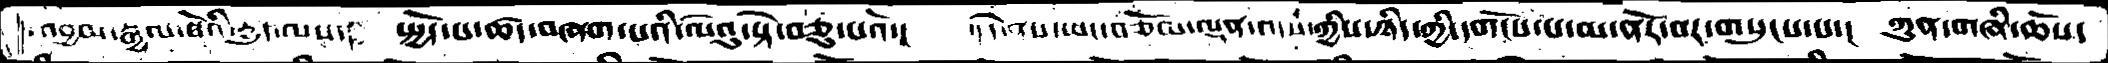འབྱམ་་རྒྱལ་པོའི་དྱུད་ལས་།  སྤྱོད་པ་ཚད་བཞག་པའི་ལེའུ་སྟེ་བཅུ་པའོ་།   ་།དེ་ནས་ཡང་བཅོམ་ལྡན་འདས་ཀྱིས་ཉིད་ཀྱི་དགོངས་པ་མ་ནོར་བར་གསུངས་པ་།  ཀུན་གཞི་ཆོས་
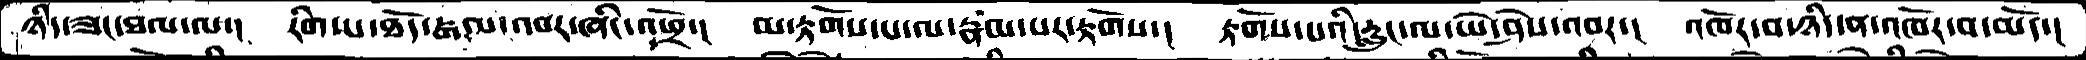ཉིད་ཟང་ཐལ་ལ་།  རིག་པ་ཐོད་རྒལ་འབར་ཞིང་འཕྲོ་།  མ་རྟོགས་པ་ལ་རྣམ་པར་རྟོགས་།  རྟོགས་པའི་རླུང་ལ་ཡེ་ཤེས་འབར་།  འཁོར་བ་ཉིད་ན་འཁོར་བ་མོད་།
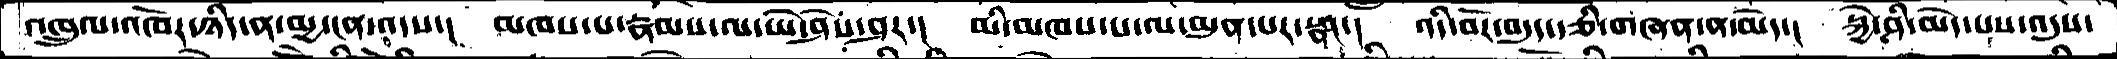འཁྲུལ་འཁོར་ཉིད་ན་མྱ་ངན་འདས་།  མཁས་པ་རྣམས་ལ་ཡེ་ཤེས་ཤར་།  མི་འཁས་པ་ལ་མུན་པར་སྣང་།  འདི་བོར་བདུད་རྩི་གཞན་ན་མེད་།  སྐྱེ་ཤི་མེད་པས་འདུས་
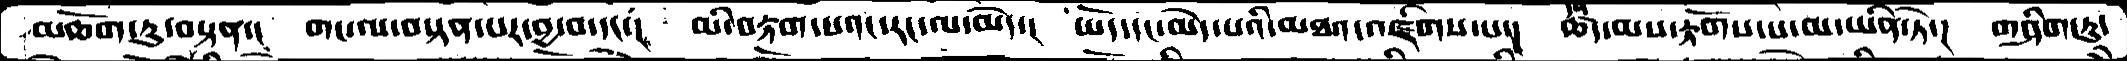མཆོག་ཏུ་བསྟན་།  གང་ལ་བསྟན་པར་བྱ་བ་དང་།  མི་བརྟག་པའང་རང་ལ་མེད་།  ཡོད་དང་མེད་པའི་མཐའ་འཇིགས་པ་།  ཚད་མས་རྟོགས་པ་མ་ཡིན་ཏེ་།  གཤིག་ཏུ་
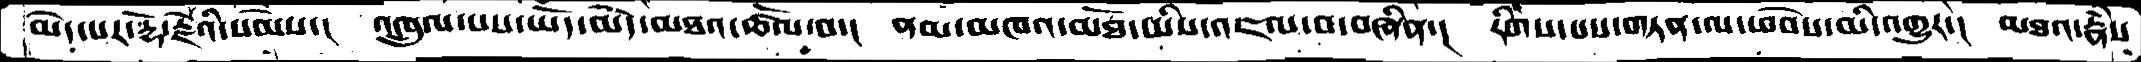མེད་པར་རྡོ་རྗེའི་སེམས་།  འཁྲུལ་པས་ཡོད་མེད་མཐའ་ཚོལ་བ་།  ནམ་མཁའ་མཐོ་ཡིས་འཇལ་བ་བཞིན་།  རིགས་པས་གཏན་ལ་ཕེབས་མི་འགྱུར་།  མཐའ་རྣཾས་
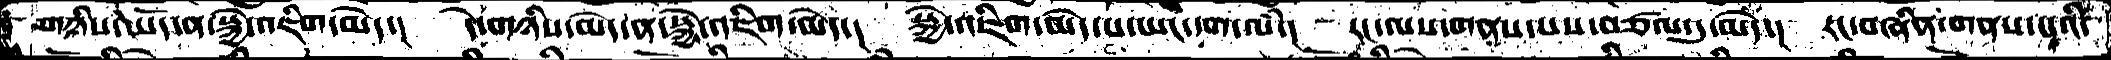གཉིས་ཡོད་ན་སྐྱེ་འཇིག་མེད་།  དེ་གཉིས་མེད་ན་སྐྱེ་འཇིག་མེད་།  སྐྱེ་འཇིག་མེད་པ་ཡང་དག་ལཾ་།  རང་ལས་གནས་པས་བཙལ་དུ་མེད་།  རང་བཞིན་གནས་པའི་
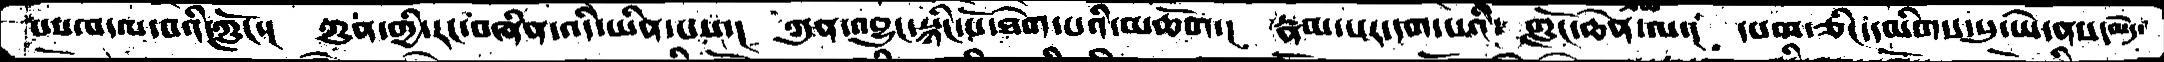པས་བདལ་བའི་ཀློང་།  ཀུན་གྱི་རང་བཞིན་འདི་ཡིན་པས་།  ཀུན་འབྱུང་སྙིང་པོ་ཐེག་པའི་མཆོག་།  རྣམ་པར་དག་པའི་གློང་ཆེན་ལ་།  དཔག་ཅིང་དམིགས་སུ་ཡེ་ནས་མེད་
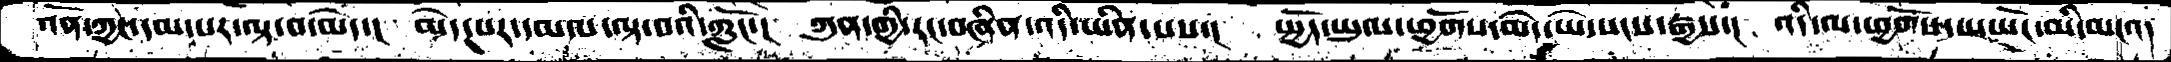འོན་ཀྱང་དམ་པར་ལྟ་བ་མེད་། མེད་པར་དམ་པ་ལྟ་བའི་ཀློང་། ཀུན་གྱི་རང་བཞིན་འདི་ཡིན་པས་། སྤྱོད་ཡུལ་ཕྱོགས་མེད་ཡེ་སངས་རྒྱས་། འདི་ལ་ཕྱོགས་སུ་སོང་མི་མངའ་
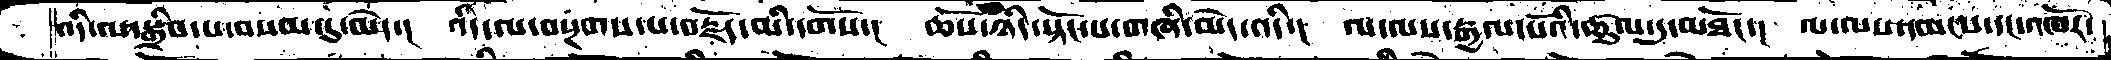འདི་ལ་སྒྲིབ་པ་བསམ་དུ་མེད་།  འདི་ལ་བསྔགས་པ་བརྗོད་མི་དགོས་།  ཆོས་ཉིད་སྟོང་པ་གཞི་མེད་འདི་།  ལ་ལས་རྒྱལ་པོའི་ཚུལ་དུ་མཐོང་།  ལ་ལས་དམངས་དང་འཁོར་
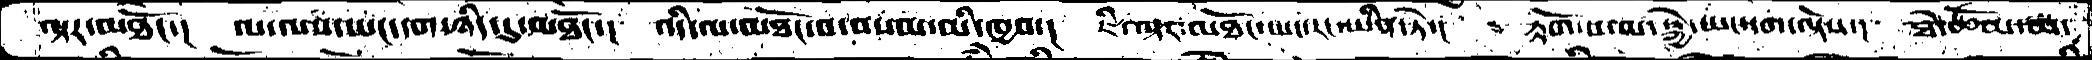ལྟར་མཐོང་།  ལ་ལས་ཡང་དག་ཉིད་དུ་མཐོང་།  འདི་ལ་མཐོང་བ་བསམ་མི་ཁྱབ་། ཇི་ལྟར་མཐོང་ཡང་རང་ཡིན་ཏེ་།  རྟོག་པ་མ་སྐྱེ་ཡང་དག་ལྟོས་།  ཐེ་ཚོམ་མ་
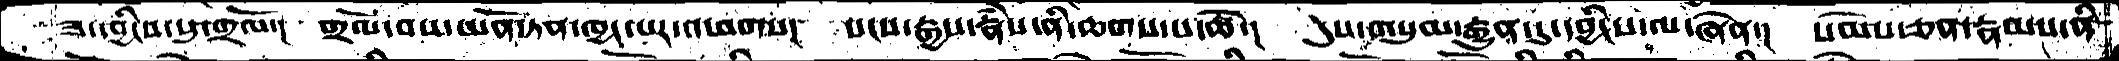ཟ་དབྱིངས་སུ་གྲོལ་།  གྲོལ་བས་ཡོན་ཏན་ཁྱད་པར་འཕགས་།  སངས་རྒྱས་རྣཾས་ནི་ཆགས་པ་ཆེ་།  དུས་གསུ་མ་རྒྱུན་དུ་དབྱིངས་ལ་ཞེན་།  སེམས་ཅན་རྣམས་ནི་
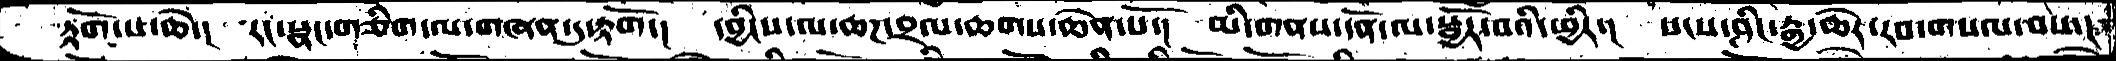རྟོག་པ་ཆེ་།  རང་སྣང་གཅིག་ལ་གཞན་དུ་རྟགོ་།  དབྱིངས་ལ་ཆཌ་བྲལ་ཆགས་ཆེན་པོ་།  མི་གནས་དོན་ལ་སྦྱོར་བའི་ཕྱིར་།  སངས་ཤིང་རྒྱ་ཆེར་རབ་གསལ་བས་།
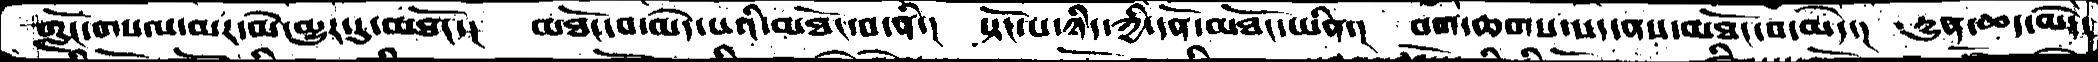གློང་གསལ་མར་མེ་མྱུར་དུ་མཐོང་།  མཐོང་བ་མེད་པའི་མཐོང་བ་ནི་།  སྟོང་པ་ཉིད་ཀྱི་དོན་མཐོང་ཡིན་།  བག་ཆགས་སད་ནས་མཐོང་བ་མེད་།  དྱུན་ཆད་མེད་
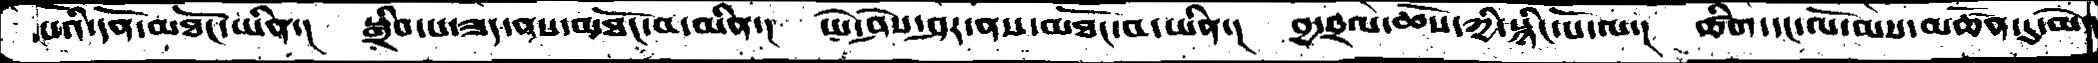པའི་དོན་མཐོང་ཡིན་།  སྒྲིབ་པ་ཟད་ནས་མཐོང་བ་མིན་།  ཡེ་ཤེས་ཤར་ནས་མཐོང་བ་ཡིན་།  བྱ་བྲལ་ཆོས་ཀྱི་སྙིང་པོ་ལ་།  ཚིག་དང་ལོ་མས་མཚོན་དུ་མེད་
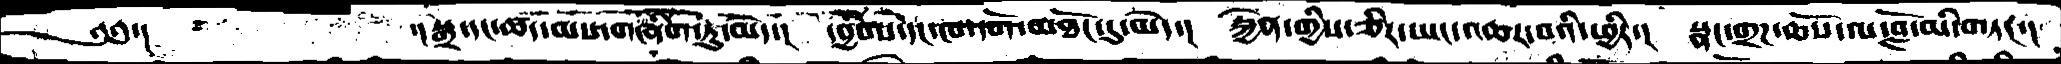༄༅་།         ་།སྒྲ་དང་ཚད་མས་གཞིག་ཏུ་མེད་།  དབྱིབས་དང་ཁ་དོག་མཐོང་དུ་མེད་།  རྐྱེན་གྱིས་ཅིར་ཡང་འཆར་བའི་ཕྱིར་།  སྣང་གྲཌ་ཆོས་ལ་བློ་མི་གཏང་།
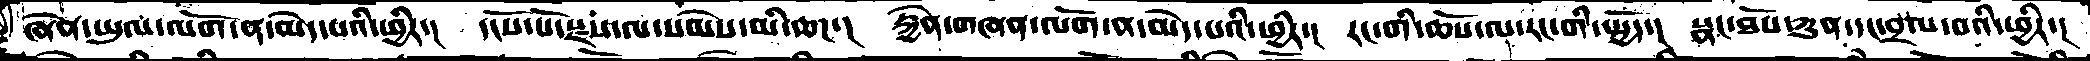ཞེན་ཡུལ་ལོག་ན་མེད་པའི་ཕྱིར་།  དངོས་པོ་སྫས་ལ་སེམས་མི་ཆཌ་།  རྐྱེན་གཞན་ལོག་ན་མེད་པའི་ཕྱིར་།  རང་གི་ཆོས་ལ་རང་གི་སྤྱོད་།  སྣང་ཐོས་ཀུན་དང་བྲལ་བའི་ཕྱིར་།
